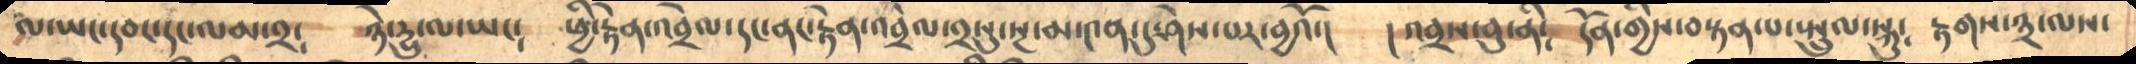ལ་ཡང་དབང་དང་ལམ་༢༴    ཉེ་དྱུ་ལ་ཡང༴   ཕྱི་རྟེན་འབྲེལ་དང་ནང་རྟེན་འབྲེལ་༢སུ་སྔ་མ་༤ན་དུ་ཤེས་པར་བྱའོ་།   ། འབྲས་བུ་ནི༴   དོན་གྱིས་བསྟན་པ་སྤྲུལ་སྐུ༴  རྟགས་༣་ལས་
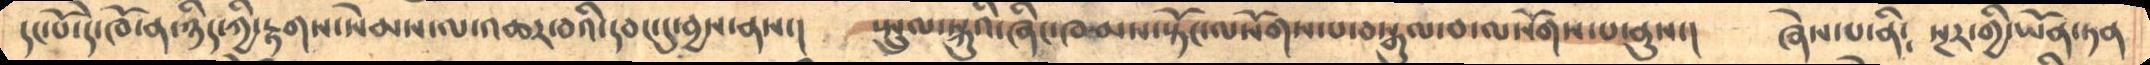དང་པོ་དེ་ཁོ་ན་ཉིད་ཀྱི་རྟགས་སེམས་ལ་འཆར་བའི་དབང་དུ་བྱས་ནས་།    སྤྲུལ་སྐུའི་ཞིང་ཁམས་སྟོང་ལསོགས་པ་བསྒུལ་བ་ལསོགས་པ་ནུས་།   ཞེས་པ་ནི༴  སྔར་གྱི་ཡོན་ཏན
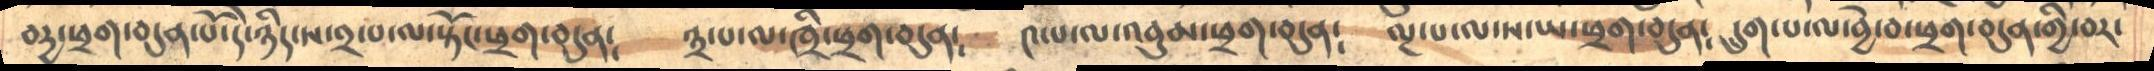བདྱ་ཕྲག་བདུན་པོ་དེ་ཉིད་ས་༢་པ་ལ་སྟོང་ཕྲག་བདུན༴    ༣་པ་ལ་ཁྲི་ཕྲག་བདུན༴    ༤་པ་ལ་འབུམ་ཕྲག་བདུན༴    ལྔ་པ་ལ་ས་ཡ་ཕྲག་བདུན༴  དྲུག་པ་ལ་བྱེ་བ་ཕྲག་བདུན་གྱི་བར་
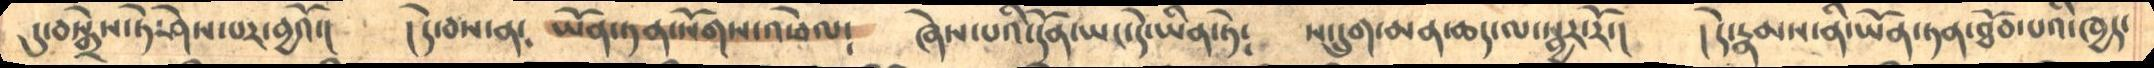དུ་བསྒྲེས་ཏེ་ཤེས་པར་བྱའོ་།    །དེ་བས་ན༴  ཡོན་ཏན་སོགས་འཕེལ༴   ཞེས་པའི་དོན་ཡང་དེ་ཡིན་ཏེ༴   ས་དྲུག་མན་ཆད་ལ་སྦྱར་རོ་།   །དེ་རྣམས་ནི་ཡོན་ཏན་ཐོབ་པའི་ཁྱད་
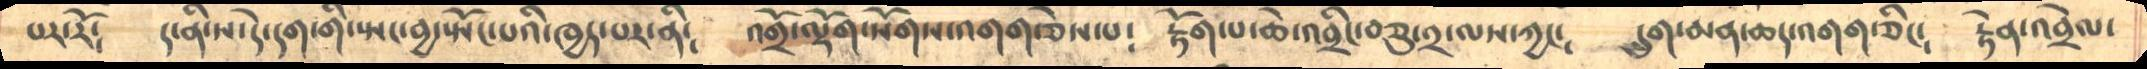པར་རོ༴   ད་ནི་ས་དེ་དག་གི་སྤང་བྱ་སྤོང་པའི་ཁྱད་པར་ནི༴   འགྲོ་ལྡོག་སོགས་འགག་ཅེས་པ༴   རྟོག་པ་ཆེ་འབྲིང་བཅུ་༢་ལས་ཀྱང༴   དྲུག་མན་ཆད་འགག་ཅིང༴  རྟེན་འབྲེལ་
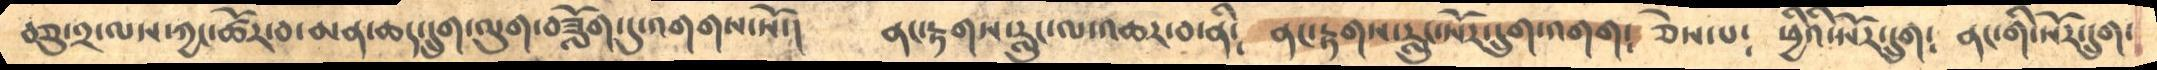བཅུ་༢་ལས་ཀྱང་ཚོར་བ་མན་ཆད་དྲུག་ལུག་བཟློག་དུ་འགགས་སོ་།    ནང་རྟགས་རླུང་ལ་འཆར་བ་ནི༴   ནང་རྟགས་རླུང་སོར་དྲུག་འགག༴  ཅེས་པ༴  ཕྱིའི་སོར་དྲུག༴   ནང་གི་སོར་དྲུག་
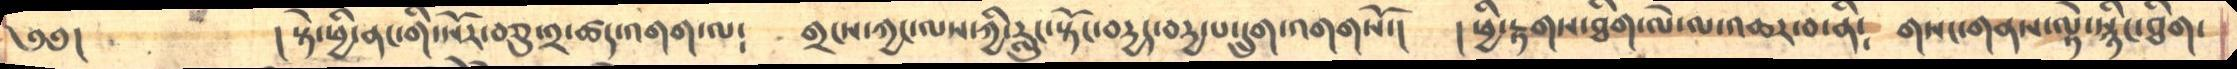༄༅།           ། སྟེ་ཕྱི་ནང་གི་སོར་བཅུ་༢་ཚད་འགག་ལ༴   གྲངས་ཀྱང་ལས་ཀྱི་རླུང་སྟོང་བདྱད་བདྱ་པ་དྲུག་འགགསོ་།    །ཕྱི་རྟགས་ཐིག་ལེ་ལ་འཆར་བ་ནི༴  གསང་གནས་ལྟེ་སྙིང་ཐིག་
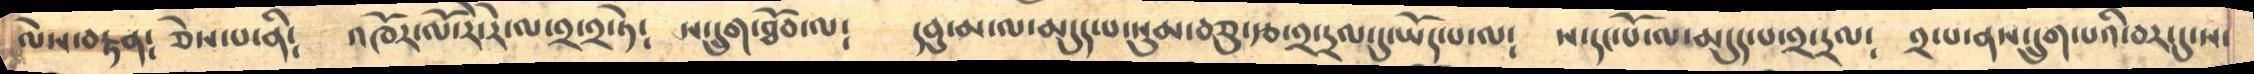ལེས་བརྟན༴  ཅེས་པ་ནི༴   འཁོར་ལོ་རེ་རེ་ལ་༢་༢་ཏེ༴  ས་དྲུག་ཐོབ་ལ༴  དབུ་མ་ལ་མདུད་པ་སུམ་བཅུ་རྩ་༢་དྲལ་དུ་ཡོད་པ་ལ༴  ས་དང་པོ་ལ་མདུད་པ་༢་དྲལ༴  ༢་པ་ནས་དྲུག་པའི་བར་དུ་ས་
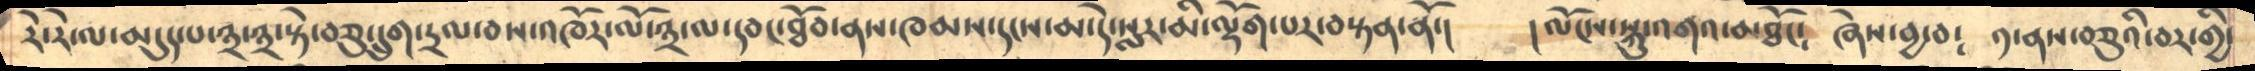རེ་རེ་ལ་མདུད་པ་༣་༣་སྟེ་བཅུ་དྲུག་དྲལ་བས་འཁོར་ལོ་༣་ལ་དབང་ཐོབ་ནས་ཁམས་དངས་མ་དེ་སླར་མི་ལྡོག་པར་བསྟན་ནོ་།   །ལོངས་སྐུ་འགའ་མཐོང༴ ཞེས་བྱ་བ༴  ༡་ནས་བཅུའི་བར་གྱི་
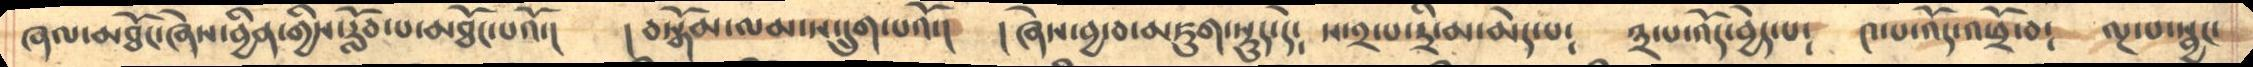ཞལ་མཐོང་ཞེས་བྱིན་གྱིས་རློབ་པ་མཐོང་པའོ་།   ། བསྒོམ་ལམ་ས་དྲུག་པའོ་།   །ཞེས་བྱ་བ་མཇུག་སྡུད་དེ༴  ས་༢་པ་དྲི་མ་མེད་པ༴  ༣་པ་འོད་བྱེད་པ༴  ༤་པ་འོད་འཕྲོ་བ༴  ལྔ་པ་སྦྱང་
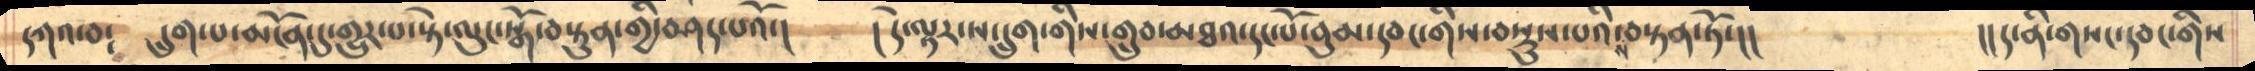དཀའ་བ༴   དྲུག་པ་མངོན་དུ་གྱུར་པ་སྟེ་ལུང་སྒོ་བསྟུན་གྱི་བཤད་པའོ་།   ། དེ་ལྟར་ས་དྲུག་གིས་གྲུབ་མཐའ་དང་པོ་བུམ་དབང་གིས་བསྡུས་པའི་ས་བསྟན་ཏོ་།།         །།ད་ནི་གསང་དབང་གིས
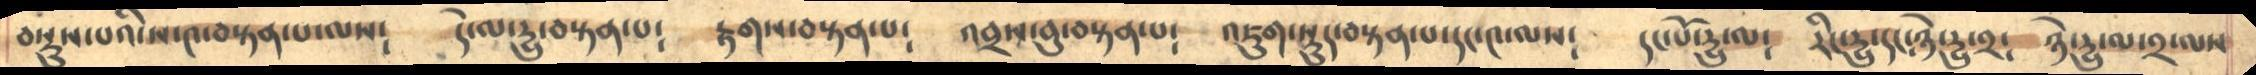བསྡུས་པའི་ས་༤་བསྟན་པ་ལས༴   དེ་ལ་དྱུ་བསྟན་པ༴   རྟགས་བསྟན་པ༴   འབྲས་བུ་བསྟན་པ༴  འཇུག་སྡུད་བསྟན་པ་དང་༤་ལས༴   དང་པོ་དྱུ་ལ༴  རིང་དྱུ་དང་ཉེ་དྱུ་༢༴  ཉེ་དྱུ་ལ་༢་ལས
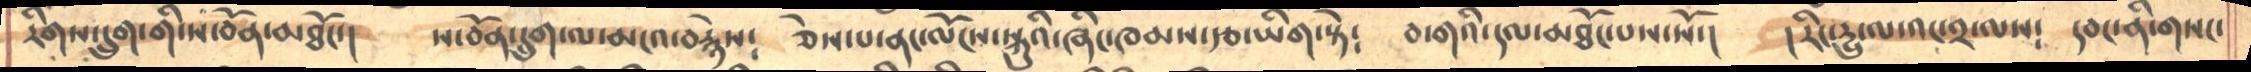རིགས་དྲུག་གི་ས་བོན་མཐོང་།    ས་བོན་དྲུག་ལ་མངའ་བརྙེས༴   ཅེས་པ་ནང་ལོངས་སྐུའི་ཞིང་ཁམས་རྩ་ཡིག་སྟེ༴   བདགའི་དལ་མཐོང་པས་སོ་།   །རིང་དྱུ་ལ་འང་༢་ལས༴  དབང་ནི་གསང་
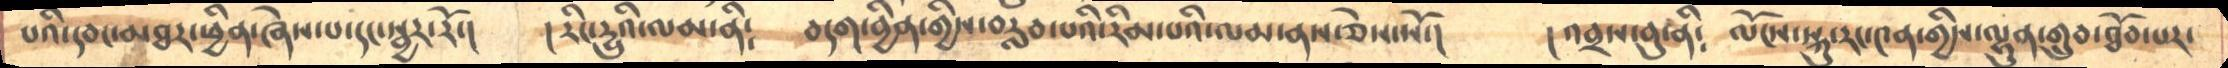པའི་དབང་མཐར་ཕྱིན་ཞེས་པ་དང་སྦྱར་རོ་།   །རིང་དྱུའི་ལམ་ནི༴   བདག་བྱིན་གྱིས་བརླབ་པའི་རིམ་པའི་ལམ་ནས་ཅེས་སོ་།   ། འབྲས་བུ་ནི༴  ལོངས་སྐུ་རང་༤ན་གྱིས་ལྷུན་གྲུབ་ཐོབ་པར་
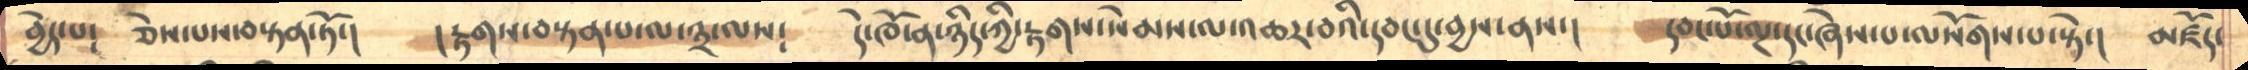བྱེད་པ༴  ཅེས་པས་བསྟན་ཏོ་།    །རྟགས་བསྟན་པ་ལ་༣་ལས༴   དེ་ཁོ་ན་ཉིད་ཀྱི་རྟགས་སེམས་ལ་འཆར་བའི་དབང་དུ་བྱས་ནས་།   དབང་པོ་ལྔ་དང་ཞེས་པ་ལསོགས་པ་སྟེ་།  མཛོད་
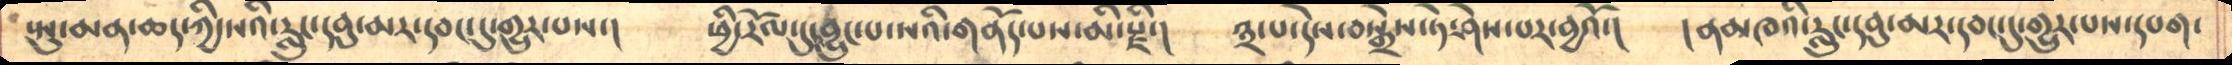སྤུ་མན་ཆད་ཀྱི་སའི་རླུང་དབུ་མར་དབང་དུ་གྱུར་པས་།   ཕྱི་རོལ་དུ་བྱུང་པ་སའི་གནོད་པས་མི་རྫི་།   ༣་པ་དེས་བསྒྲེས་ཏེ་ཤེས་པར་བྱའོ་།   ། ནམཁའི་རླུང་དབུ་མར་དབང་དུ་གྱུར་པས་དཔག་
